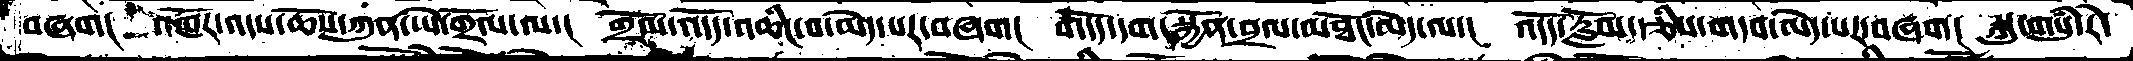བཞག།  འཁོར་འདས་ཆོས་ཀུན་ཡེ་གྲོལ་ལ་།  གྲོལ་འདོད་འཆིང་བ་མེད་པར་བཞག།  གདོད་དག་སྐྱོན་བྲལ་མཐོང་མེད་ལ་།  འདོད་རློམ་དཙིས་གདབ་མེད་པར་བཞག།  སྐུ་གསུཾ་རེ་
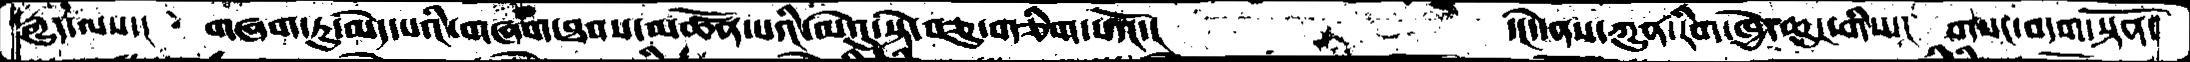རྒྱུད་ལས་།  གཞག་ཏུ་མེད་པའི་གཞག་ཐབས་མཚོན་པའི་ལེའུ་སྟེ་བཅུ་གཅིག་པའོ་།           ་།དེ་ནས་ཀུན་རིག་ཁྱེ་ཆུང་གིས་།  གསང་བདག་སྟོན་
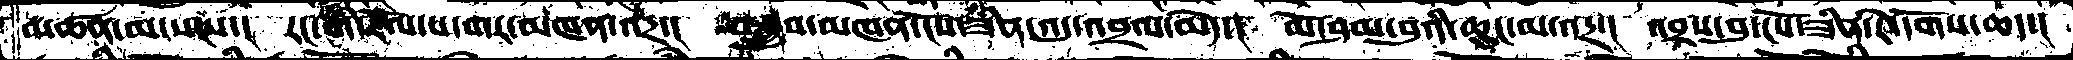མཚན་མ་སངས་།  རང་གི་རོལ་པ་གར་མཁན་འདྲ་།  བསྒྲུབ་མཁན་ངོས་ཟིན་འདུ་འབྲལ་མེད་།  མོ་ཤམ་བུའི་ཆུང་མ་འདྲ་།  འབྲས་བུ་ངོས་ཟིན་རེ་དོགས་ཆད་།
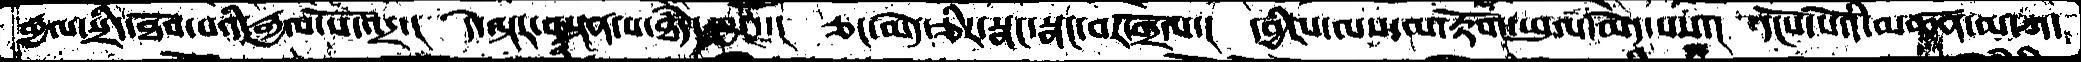རྒྱལ་སྲིད་ཐོབ་པའི་རྒྱལ་པོ་འདྲ་།  དེ་ལྟར་བསྟན་པ་ཐཾད་ལྟར་།  ཅང་མེད་ཅིར་སྣང་སྣང་བར་གྲོལ་།  དབྱིངས་ལས་མ་རྟོག་ཕུལ་མེད་པས་།  དངོས་པོའི་མཚན་མ་ཀ་
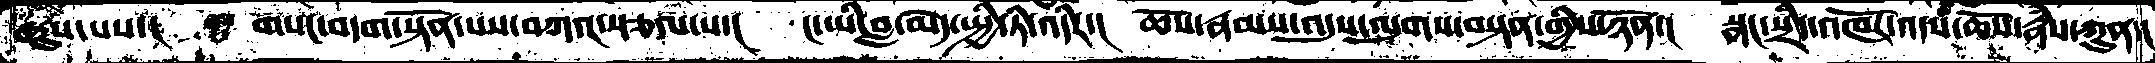ཞུས་པས་།  གསང་བདག་སྟོན་པས་བཀའ་སྩལ་པ་།  ང་ཡི་བླ་མེད་སྤྱི་ཏི་འདིར་།  ཆོས་རྣམས་འདུས་ལུགས་བསྟན་གྱིས་ཉོན་།  སྣང་སྲིད་འཁོར་འདས་ཆོས་རྣཾས་ཀུན་
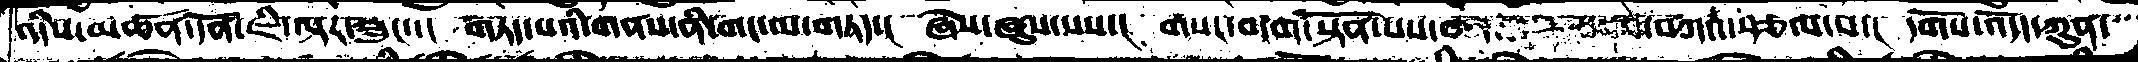འདིས་མཚོན་དོན་ཇི་ལྟར་ཟུང་་།  གཏད་པའི་གནས་ནི་གང་ལ་གཏད་།  ཞེས་ཞུས་པས་།  གསང་བདག་སྟོན་པས་              བཀའ་སྩལ་བ་།  དགོས་འདོད་ཀུན་
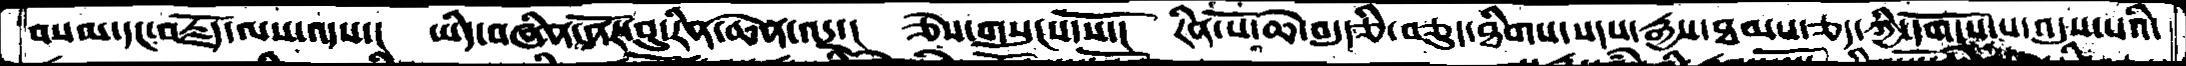བསམ་དང་བརྗོད་ལས་འདས་།  ཡིད་བཞིན་ནོར་བུ་རིན་ཆེན་འདྲ་།  ཅེས་གསུངས་སོ་།  རིན་པོ་ཆེ་བདུདཅི་བཅུད་ཐིགས་སངས་རྒྱས་ཐམས་ཅད་ཀྱི་དགོངས་པ་འདུས་པའི་
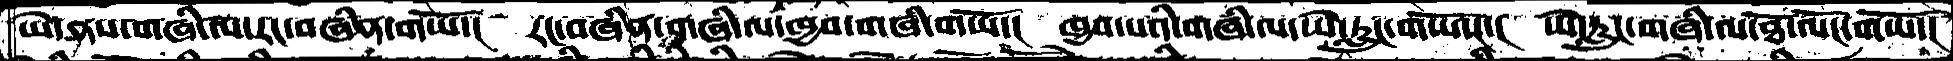ཡེ་ནས་གཞི་ལ་རང་བཞིན་གཡོ་།  རང་བཞིན་གཞི་ལ་ཁྱབ་གཞི་གཡོ་།  ཁྱབ་པའི་གཞི་ལ་ཡེ་རླུང་གཡོས་།  ཡེ་རླུང་གཞི་ལ་ཐོ་ལོང་གཡོ་།
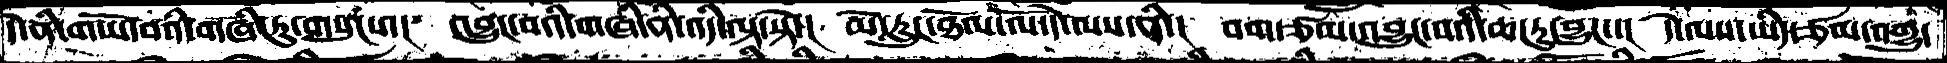དེ་ནི་གཡོ་བའི་གཞི་རུ་གསུངས་།  འབྱུང་བའི་གཞི་ནི་འདི་ལྟ་སྟེ་།  མེ་རླུང་ཐོལ་ལོ་དེ་ལས་ནི་།  བག་ཙམ་འབྱུང་པའི་ཆ་རུ་བྱུང་།  དེ་ལས་ཡིད་ཙམ་འགྱུ་
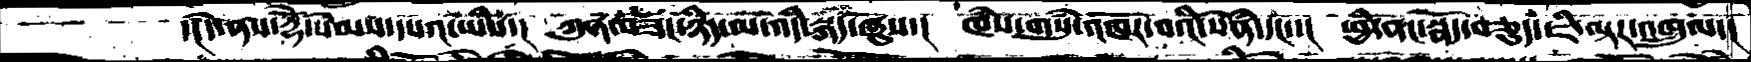དང་དེ་ནས་རྡོེ་སེམས་དཔའ་ཡིས་།  ཀུན་བཟང་ཉིད་ལ་འདི་སྐད་ཞུས་།  ཁཾས་གསུཾ་འཁོར་བའི་སེནཾ་དང་་།  ཕྱི་ནང་སྣོད་བཅུད་ཇི་ལྟར་འཁྲུལ་།
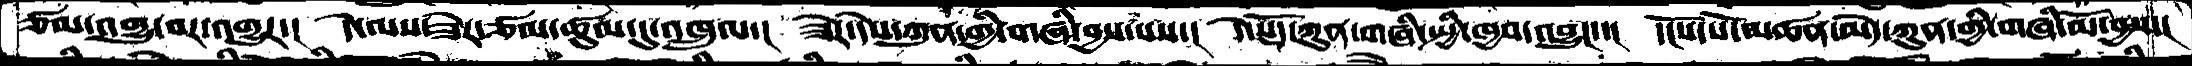ཙམ་འགྱུ་བར་འགྱུར་།  དེ་ལས་ཟེར་ཙམ་ཚུལ་དུ་འཁྲུལ་།  ཟེར་དེས་ཀུན་གྱི་གཞི་བྱས་པས་།  དེ་སྡོད་ཀུན་གཞི་སྤྱི་ཁྱབ་འབྱུང་་།  དངོས་པོ་མཚན་མེད་ཀུན་གྱིི་གཞི་མོ་བྱས་།
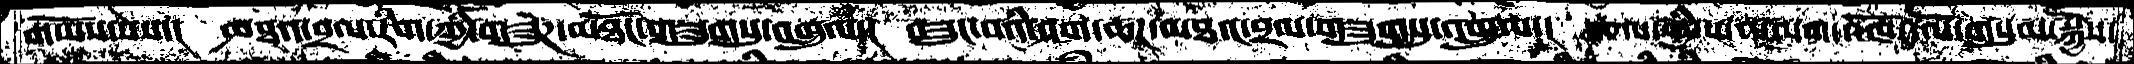གཡོས་པས་།  མཐའ་བྲལ་རིག་ཀྱི་གཟུཌ་མཐོང་གཟུགས་སུ་འཁྲུལ་།  བཟུང་བའི་བག་ཆཌ་མཐའ་བྲལ་གཟུགསུ་འཁྲུལ་།  རྩལ་གྱི་ཡན་ལག་འཁོར་ལོ་གསུམ་སྐྱེས་
